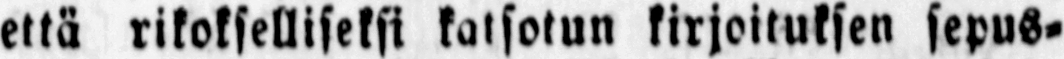että rikokselliseksi katsotun kirjoituksen sepus-
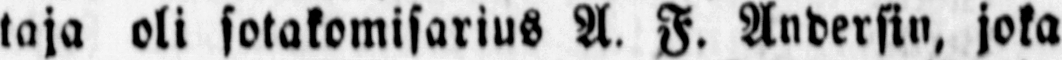taja oli sotakomisarius A. F. Andersin, joka
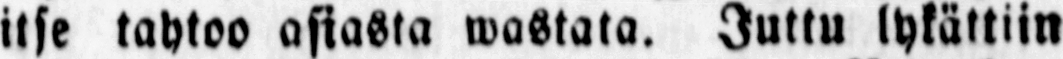itse tahtoo asiasta wastata. Juttu lykättiin
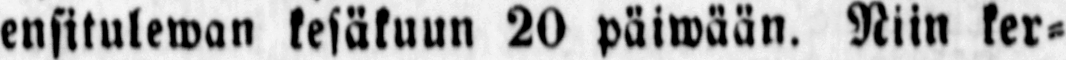ensitulewan kesäkuun 20 päiwään. Niin ker-
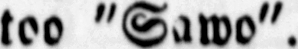too "Sawo".
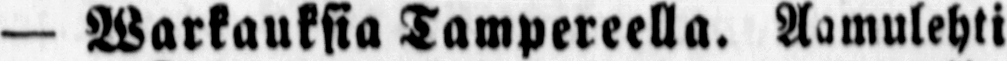— Warkauksia Tampereella. Aamulehti
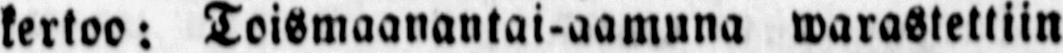kertoo: Toismaanantai-aamuna warastettiin
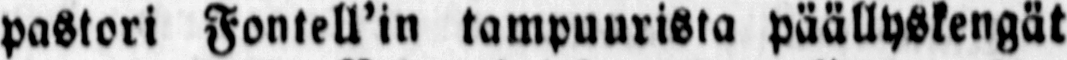pastori Fontell'in tampuurista päällyskengät
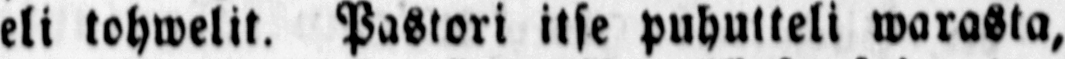eli tohwelit. Pastori itse puhutteli warasta,
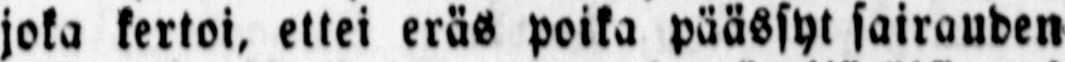joka kertoi, ettei eräs poika päässyt sairauden
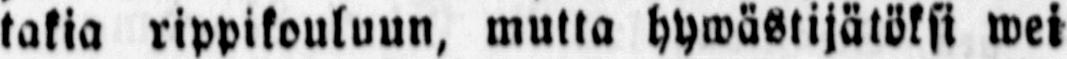takia rippikouluun, mutta hywästijätöksi wei
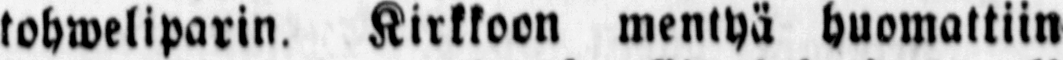tohweliparin. Kirkkoon mentyä huomattiin
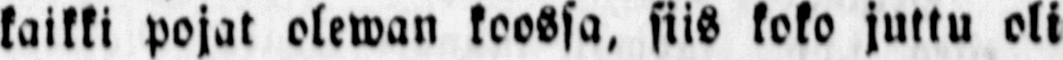kaikki pojat olewan koossa, siis koko juttu oli
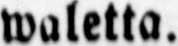waletta.
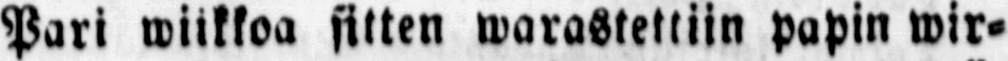Pari wiikkoa sitten warastettiin papin wir-
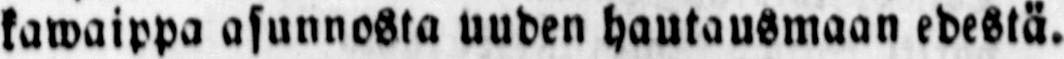kawaippa asunnosta uuden hautausmaan edestä.
